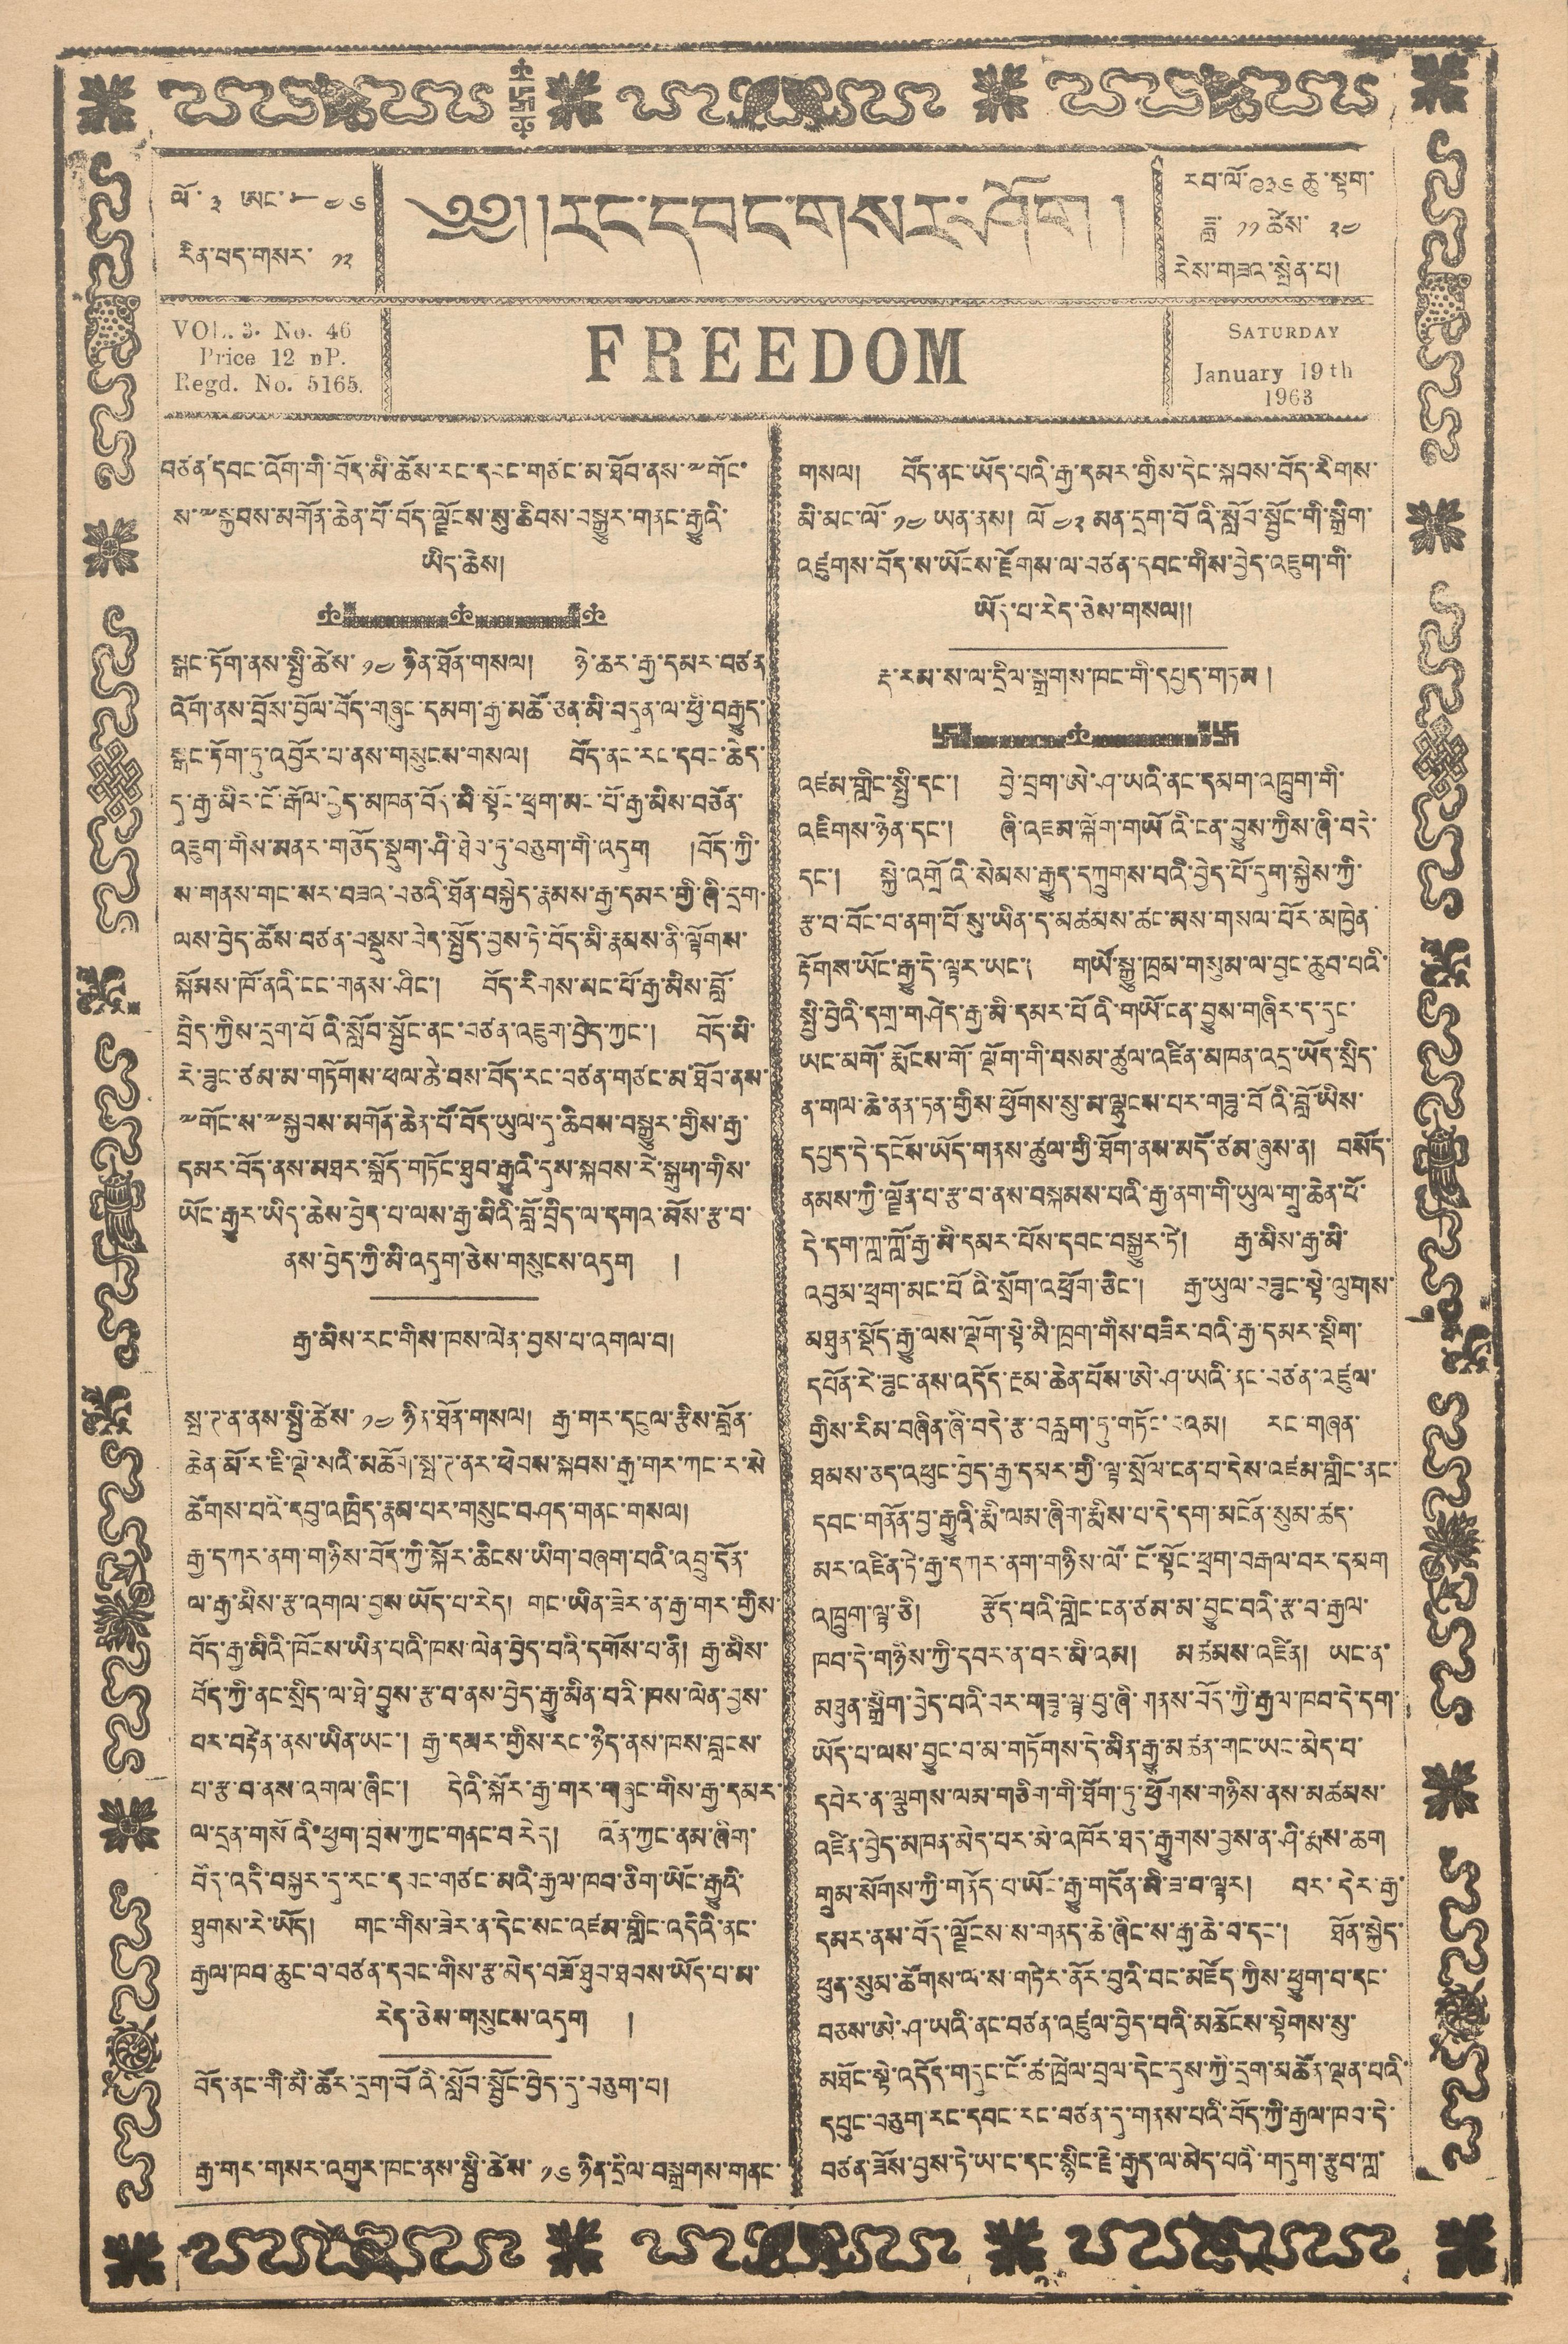བཙན་དབང་འོག་གི་བོད་མི་ཚོས་རང་དབང་གཙང་མ་ཐོབ་ནས་༸གོང་
ས་༸སྐྱབས་མགོན་ཆེན་པོ་བོད་ལྗོངས་སུ་ཆིབས་བསྒྱུར་གནང་རྒྱུའི་
ཡིད་ཆེས།
སྒང་ཏོག་ནས་སྤྱི་ཚེས་ ༡༤ ཉིན་ཐོན་གསལ། ཉེ་ཆར་རྒྱ་དམར་བཙན་
འོག་ནས་བྲོས་བྱོལ་བོད་གཞུང་དམག་རྒྱ་མཚོ་བན་མི་བདུན་ལ་ཕྱི་བརྒྱུད་
སྒང་ཏོག་ཏུ་འབྱོར་པ་ནས་གསུངས་གསལ། བོད་ནས་རང་དབང་ཆེད་
དུ་རྒྱ་མིར་ངོ་རྒོལ་བྱེད་མཁན་བོད་མི་སྟོང་ཕྲག་མང་པོ་རྒྱ་མིས་བཙོན་
འཇུག་གིས་མནར་གཅོད་སྡུག་ཤི་ཐེབ་ཏུ་བཅུག་གི་འདུག །བོད་ཀྱི་
ས་གནས་གང་སར་བཟའ་བཅའི་ཏོན་བསྐྱེད་རྣམས་རྒྱ་དམར་གྱི་ཞི་དྲག་
ལས་བྱེད་ཚོས་བཙན་བསྡུས་བདེ་སྤྱོད་བྱས་ཏེ་བོད་མི་རྣམས་ནི་ལྟོགས་
སྐོམས་ཁོ་ནའི་ངང་གནས་ཤིང་། བོད་རིགས་མང་པོ་རྒྱ་མིས་བློ་
བྲིད་ཀྱིས་དྲག་པོའི་སློབ་སྦྱོང་ནང་བཙན་འཇུག་བྱེད་ཀྱང་། བོད་མི་
རེ་ཟུང་ཙམ་མ་གཏོགས་ཕལ་ཆེ་བས་བོད་རང་བཙན་གཙང་མ་ཐོབ་ནས་
༸གོང་ས་༸སྐྱབས་མགོན་ཆེན་པོ་བོད་ཡུལ་དུ་ཆིབས་བསྒྱུར་གྱིས་རྒྱ་
དམར་བོད་ནས་མཐར་སྐྲོད་གཏོང་ཐུབ་རྒྱུའི་དུས་སྐབས་རེ་སྒུག་གིས་
ཡོང་རྒྱུར་ཡིད་ཆེས་བྱེད་པ་ལས་རྒྱ་མིའི་བློ་བྲིད་ལ་དགའ་མོས་རྩ་བ་
ནས་བྱེད་ཀྱི་མི་འདུག་ཅེས་གསུངས་འདུག །
རྒྱ་མིས་རང་གིས་ཁས་ལེན་བྱས་པ་འགལ་བ།
སྤ་ཊ་ན་ནས་སྤྱི་ཚེས་ ༡༤ ཉིན་ཐོན་གསལ། རྒྱ་གར་དངུལ་རྩིས་བློན་
ཆེན་མོ་ར་ཇི་ལྡེ་སའི་མཆོག་སྤ་ཊ་ནར་ཕེབས་སྐབས་རྒྱ་གར་ཀང་ར་སེ
ཚོགས་པའི་དབུ་འཁྲིད་རྣམ་པར་གསུང་བཤད་གནང་གསལ།
རྒྱ་དཀར་ནག་གཉིས་བོད་ཀྱི་སྐོར་ཆིངས་ཡིག་བཞག་པའི་འབྱུ་དོན་
ལ་རྒྱ་མིས་རྩ་འགལ་བྱས་ཡོད་པ་རེད། གང་ཡིན་ཟེར་ན་རྒྱ་གར་གྱིས་
བོད་རྒྱ་མིའི་ཁོངས་ཡིན་པའི་ཁས་ལེན་བྱེད་པའི་དགོས་པ་ནི། རྒྱ་མིས་
བོད་ཀྱི་ནང་སྲིད་ལ་ཐེ་བྱུས་རྩ་བ་ནས་བྱེད་རྒྱུ་མིན་པའི་ཁས་ལེན་བྱས་
པར་བརྟེན་ནས་ཡིན་ཡང་། རྒྱ་དམར་གྱིས་རང་ཉིད་ནས་ཁས་བླངས་
པ་རྩ་བ་ནས་འགལ་ཞིང་། དེའི་སྐོར་རྒྱ་གར་གཞུང་གིས་རྒྱ་དམར་
ལ་དྲན་གསོའི་ཕྱག་བྲས་ཀྱང་གནང་བ རེད། འོན་ཀྱང་ནམ་ཞིག་
བོད་འདི་བསྐྱར་དུ་རང་དབང་གཙང་མའི་རྒྱལ་ཁབ་ཅིག་ཡོང་རྒྱུའི་
ཐུགས་རེ་ཡོད། གང་གིས་ཟེར་ན་དེང་སང་འཛམ་གླིང་འདིའི་ནང་
རྒྱལ་ཁབ་ཆུང་བ་བཙན་དབང་གིས་རྩ་མེད་བཟོ་ཐུབ་ཐབས་ཡོད་པ་མ་
རེད་ཅེས་གསུངས་འདུག །
བོད་ནང་གི་མི་ཚོར་དྲག་པོའི་སློབ་སྦྱོང་བྱེད་དུ་བཅིག་པ།
རྒྱ་གར་གསར་འགྱུར་ཁང་ནས་སྤྱི་ཚེས་ ༡༦ ཉིན་དྲིལ་བསྒྲགས་གནང་
གསལ། བོད་ནང་ཡོད་པའི་རྒྱ་དམར་གྱིས་དེང་སྐབས་བོད་རིགས་
མི་མང་ལོ་ ༡༤ ཡན་ནས། ལོ ༤༢ མན་དྲག་པོའི་སློབ་སྦྱོང་གི་སྒྲིག་
འཛུགས་བོད་ས་ཡོངས་རྫོགས་ལ་བཙན་དབང་གིས་བྱེད་འཇུག་གི་
ཡོད་པ་རེད་ཅེས་གསལ༎
རྡ་རམ་ས་ལ་དྲིལ་སྒྲགས་ཁང་གི་དཔྱད་གཏམ །
འཛམ་གླིང་སྤྱི་དང་། བྱེ་བྲག་ཨེ་ཤ་ཡའི་ནང་དམག་འཁྲུག་གི་
འཇིགས་ཉེན་དང་། ཞི་འཇམ་ལྐོག་གཡོའི་ངན་བྱུས་ཀྱིས་ཞི་བདེ་
དང་། སྐྱེ་འགྲོའི་སེམས་རྒྱུད་དཀྲུགས་པའི་བྱེད་པོ་དུག་སྐྱེས་ཀྱི་
རྩ་བ་བོང་བ་ནག་པོ་སུ་ཡིན་ད་མཚམས་ཚང་མས་གསལ་པོར་མཁྱེན་
རྟོགས་ཡོང་རྒྱུ་དེ་ལྟར་རང་། གཡོ་སྐྱུ་ཁྲམ་གསུམ་ལ་བྱང་ཆུབ་པའི་
སྤྱི་བྱེའི་དགྲ་གཤེད་རྒྱ་མི་དམར་པོའི་གཡོ་ངན་བྱུས་གཞིར་ད་དུང་
ཡང་མགོ་རྨོངས་གོ་ལྡོག་གི་བསམ་ཚུལ་འཛིན་མཁན་འདྲ་ཡོད་སྲིད་
ན་གལ་ཆེ་ནན་ཏན་གྱིས་ཕྱོགས་སུ་ལྷུངས་པར་གཟུ་བོའི་བློ་ཡིས་
དཔྱད་དེ་དངོས་ཡོད་གནས་ཚུལ་གྱི་ཐོག་ནས་མདོ་ཙམ་ཞུས་ན། བསོད་
ནམས་ཀྱི་སྗོན་པ་རྩ་བ་ནས་བསྐབས་པའི་རྒྱ་ནག་གི་ཡུལ་གྲུ་ཆེན་པོ་
དེ་དག་ཀླ་ཀློ་རྒྱ་མི་དམར་པོས་དབང་བསྒྱུར་ཏེ། རྒྱ་མིས་རྒྱ་མི་
འབུམ་ཕྲག་མང་པོའི་སྲོག་འཕྲོག་ཅིང་། རྒྱ་ཡུལ་བཟུང་སྟེ་ལུགས་
མཐུན་སྡོད་རྒྱུ་ལས་ལྡོག་སྟེ་མི་ཁྲག་གིས་བཟིར་བའི་རྒྱ་དམར་སྡིག་
དཔོན་རེ་ཟུར་ནས་འདོད་རྔམ་ཆེན་པོས་ཨེ་ཤ་ཡའི་ནང་བཙན་འཛུལ་
གྱིས་རིམ་བཞིན་ཞི་བདེ་རྩ་བརླག་ཏུ་གཏོང་པའམ། རང་གཞན་
ཐམས་ཅད་འཕུང་བྱེད་རྒྱ་དམར་གྱི་ལྟ་སྲོལ་ངན་པ་དེས་འཛམ་གླིང་ནང་
དབང་གནོན་བྱ་རྒྱུའི་རྨི་ལམ་ཞིག་རྨིས་པ་དེ་དག་མངོན་སུམ་ཚད་
མར་འཛིན་ཏེ་རྒྱ་དཀར་ནག་གཉིས་ལོ་ངོ་སྟོང་ཕྲག་བརྒལ་བར་དམག
འཁྲུག་ལྟ་ཅི། རྩོད་པའི་གླིང་ངན་ཙན་མ་བྱུང་བའི་རྩ་བ་རྒྱལ་
ཁབ་དེ་གཉིས་ཀྱི་དབར་ན་བར་མི་འམ། མཚམས་འཛིན། ཡང་ན་
མཐུན་སྒྲིག་བྱེད་པའི་བར་གཟུ་ལྟ་བུ་ཞི་གནས་བོད་ཀྱི་རྒྱལ་ཁབ་དེ་དག་
ཡོད་པ་ལས་བྱང་བ་མ་གཏོགས་དེ་མིན་རྒྱུ་མཚན་གང་ཡང་མེད་པ་
དཔེར་ན་ལྕགས་ལམ་གཅིག་གི་ཐོག་ཏུ་ཕྱོགས་གཉིས་ནས་མཚམས་
འཛིན་བྱེད་མཁན་མེད་པར་མེ་འཁོར་ཐད་རྒྱུགས་བྱས་ན་ཤི་རྨས་ཆག
གྲུམ་སོགས་ཀྱི་གནོད་པ་ཡོང་རྒྱུ་གདོན་མི་ཟ་བ་ལྟར། བར་དེར་རྒྱ་
དམར་ནས་བོད་ལྗོངས་ས་གནད་ཆེ་ཞིང་ས་རྒྱ་ཆེ་བ་དང་། ཐོན་སྐྱེད་
ཕུན་སུམ་ཚོགས་ལ་ས་གཏེར་ནོར་བུའི་བང་འཛོད ཀྱིས་ཕྱུག་བ་དང་
བཅས་ཡེ་ཤ་ཡའི་ནང་བཙན་འཛུལ་བྱེད་པའི་མཆོངས་སྟེགས་སུ་
མཐོང་སྟེ་འདོད་གདུང་ངོ་ཚ་ཁྲེལ་བྲལ་དེང་དུས་ཀྱི་དྲག་མཚོན་ལྡན་པའི་
དཔུང་བཅུག་རང་དབང་རང་བཙན་དུ་གནས་པའི་བོད་ཀྱི་རྒྱལ་ཁབ་དེ་
བཙན་ཟོས་བྱས་ཏེ་ཡ་ང་དང་སྙིང་རྗེ་རྒྱུད་ལ་མེད་པའི་གདུག་རྩུབ་ཀླ་
